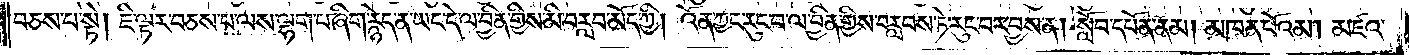བཅས་པ་སྟེ། ཇི་ལྟར་བཅས་པ་ལས་ལྷག་པ་ཞིག་རྙེད་ན་ཡང་དེ་ལ་བྱིན་གྱིས་མི་བརླབ་མོད་ཀྱི། འོན་ཀྱང་རུང་བ་ལ་བྱིན་གྱིས་བརླབས་ཏེ་རུང་བར་བྱས་ན། སློབ་དཔོན་ནམ། མཁན་པོའམ། མཛའ་
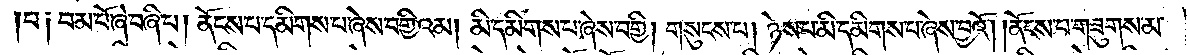བ༑ བམ་པོ་ཞེ་བཞི་པ། ནོངས་པ་དམིགས་པ་ཞེས་བགྱིའམ། མི་དམིགས་པ་ཞེས་བགྱི། གསུངས་པ། ཉེས་པ་མི་དམིགས་པ་ཞེས་བྱའོ། །ནོངས་པ་གཟུགས་མ་
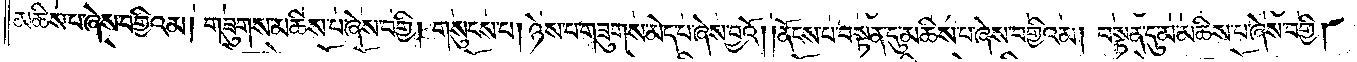མཆིས་པ་ཞེས་བགྱིའམ། གཟུགས་མཆིས་པ་ཞེས་བགྱི། གསུངས་པ། ཉེས་པ་གཟུགས་མེད་པ་ཞེས་བྱའོ། །ནོངས་པ་བསྟན་དུ་མཆིས་པ་ཞེས་བགྱིའམ། བསྟན་དུ་མ་མཆིས་པ་ཞེས་བགྱི།
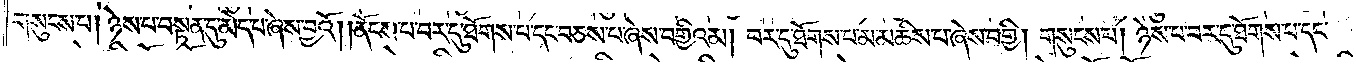གསུངས་པ། ཉེས་པ་བསྟན་དུ་མེད་པ་ཞེས་བྱའོ། །ནོངས་པ་བར་དུ་ཐོགས་པ་དང་བཅས་པ་ཞེས་བགྱིའམ། བར་དུ་ཐོགས་པ་མ་མཆིས་པ་ཞེས་བགྱི། གསུངས་པ། ཉེས་པ་བར་དུ་ཐོགས་པ་དང༌།
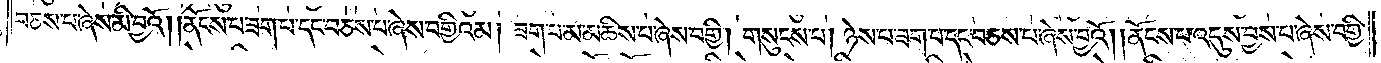བཅས་པ་ཞེས་མི་བྱའོ། །ནོངས་པ་ཟག་པ་དང་བཅས་པ་ཞེས་བགྱིའམ། ཟག་པ་མ་མཆིས་པ་ཞེས་བགྱི། གསུངས་པ། ཉེས་པ་ཟག་པ་དང་བཅས་པ་ཞེས་བྱའོ། །ནོངས་པ་འདུས་བྱས་པ་ཞེས་བགྱི་
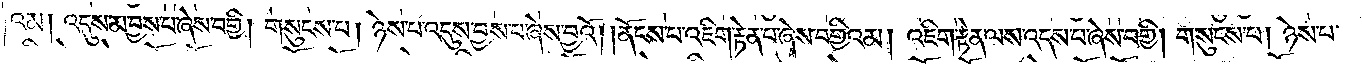འམ། འདུས་མ་བྱས་པ་ཞེས་བགྱི། གསུངས་པ། ཉེས་པ་འདུས་བྱས་པ་ཞེས་བྱའོ། །ནོངས་པ་འཇིག་རྟེན་པ་ཞེས་བགྱིའམ། འཇིག་རྟེན་ལས་འདས་པ་ཞེས་བགྱི། གསུངས་པ། ཉེས་པ་
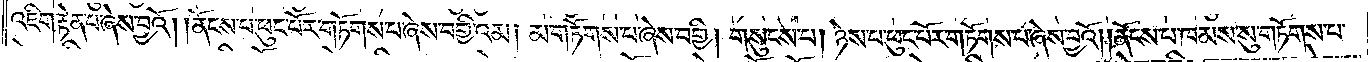འཇིག་རྟེན་པ་ཞེས་བྱའོ། །ནོངས་པ་ཕུང་པོར་གཏོགས་པ་ཞེས་བགྱིའམ། མ་གཏོགས་པ་ཞེས་བགྱི། གསུངས་པ། ཉེས་པ་ཕུང་པོར་གཏོགས་པ་ཞེས་བྱའོ། །ནོངས་པ་ཁམས་སུ་གཏོགས་པ་
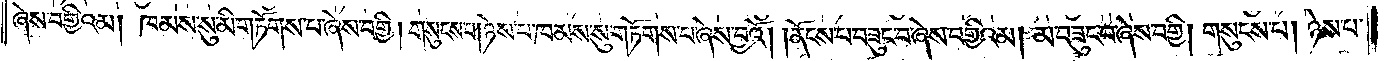ཞེས་བགྱིའམ། ཁམས་སུ་མི་གཏོགས་པ་ཞེས་བགྱི། གསུངས་པ། ཉེས་པ་ཁམས་སུ་གཏོགས་པ་ཞེས་བྱའོ། །ནོངས་པ་བཟུང་བ་ཞེས་བགྱིའམ། མ་བཟུང་བ་ཞེས་བགྱི། གསུངས་པ། ཉེས་པ་
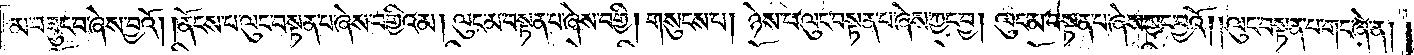མ་བཟུང་བ་ཞེས་བྱའོ། །ནོངས་པ་ལུང་བསྟན་པ་ཞེས་བགྱིའམ། ལུང་མ་བསྟན་པ་ཞེས་བགྱི། གསུངས་པ། ཉེས་པ་ལུང་བསྟན་པ་ཞེས་ཀྱང་བྱ། ལུང་མ་བསྟན་པ་ཞེས་ཀྱང་བྱའོ། །ལུང་བསྟན་པ་གང་ཞེ་ན།
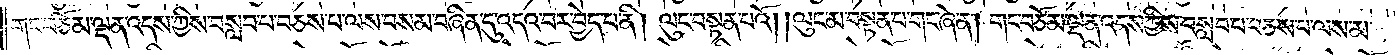གང་བཅོམ་ལྡན་འདས་ཀྱིས་བསླབ་པ་བཅས་པ་ལས་བསམ་བཞིན་དུ་འདའ་བར་བྱེད་པ་ནི། ལུང་བསྟན་པའོ། །ལུང་བསྟན་པ་གང་ཞེ་ན། གང་བཅོམ་ལྡན་འདས་ཀྱིས་བསླབ་པ་བཅས་པ་ལས་མ་
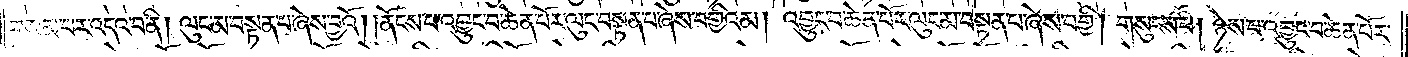བསམ་པར་འདའ་བ་ནི། ལུང་མ་བསྟན་པ་ཞེས་བྱའོ། །ནོངས་པ་འབྱུང་བ་ཆེན་པོར་ལུང་བསྟན་པ་ཞེས་བགྱིའམ། འབྱུང་བ་ཆེན་པོར་ལུང་མ་བསྟན་པ་ཞེས་བགྱི། གསུངས་པ། ཉེས་པ་འབྱུང་བ་ཆེན་པོར་
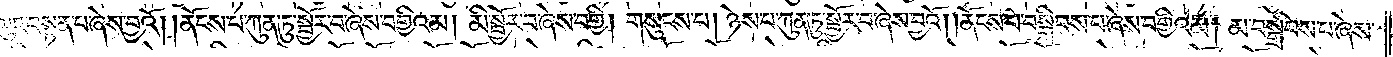ལུང་བསྟན་པ་ཞེས་བྱའོ། །ནོངས་པ་ཀུན་ཏུ་སྦྱོར་བ་ཞེས་བགྱིའམ། མི་སྦྱོར་བ་ཞེས་བགྱི། གསུངས་པ། ཉེས་པ་ཀུན་ཏུ་སྦྱོར་བ་ཞེས་བྱའོ། །ནོངས་པ་བསྒྲིབས་པ་ཞེས་བགྱིའམ། མ་བསྒྲིབས་པ་ཞེས་
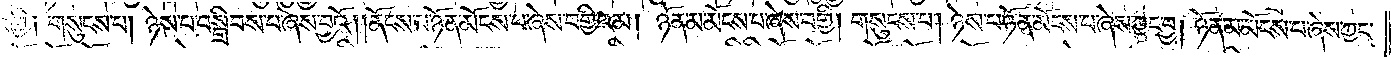བགྱི༑ གསུངས་པ། ཉེས་པ་བསྒྲིབས་པ་ཞེས་བྱའོ། །ནོངས་པ་ཉོན་མོངས་པ་ཞེས་བགྱིའམ། ཉོན་མ་མོངས་པ་ཞེས་བགྱི། གསུངས་པ། ཉེས་པ་ཉོན་མོངས་པ་ཞེས་ཀྱང་བྱ། ཉོན་མ་མོངས་པ་ཞེས་ཀྱང་
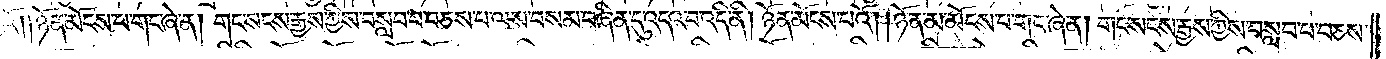བྱའོ། །ཉོན་མོངས་པ་གང་ཞེ་ན། གང་སངས་རྒྱས་ཀྱིས་བསླབ་པ་བཅས་པ་ལས་བསམ་བཞིན་དུ་འདའ་བ་འདི་ནི། ཉོན་མོངས་པའོ། །ཉོན་མ་མོངས་པ་གང་ཞེ་ན། གང་སངས་རྒྱས་ཀྱིས་བསླབ་པ་བཅས་
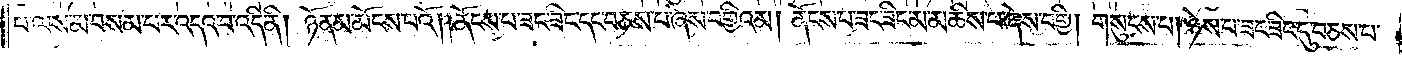པ་ལས་མ་བསམ་པར་འདའ་བ་འདི་ནི། ཉོན་མ་མོངས་པའོ། །ནོངས་པ་ཟང་ཟིང་དང་བཅས་པ་ཞེས་བགྱིའམ། ནོངས་པ་ཟང་ཟིང་མ་མཆིས་པ་ཞེས་བགྱི། གསུངས་པ། ཉེས་པ་ཟང་ཟིང་དུ་བཅས་པ་
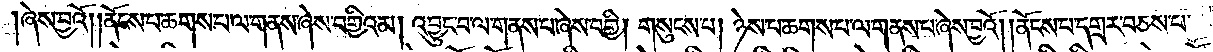ཞེས་བྱའོ། །ནོངས་པ་ཆགས་པ་ལ་གནས་ཞེས་བགྱིའམ། འབྱུང་བ་ལ་གནས་པ་ཞེས་བགྱི། གསུངས་པ། ཉེས་པ་ཆགས་པ་ལ་གནས་པ་ཞེས་བྱའོ། །ནོངས་པ་དགྲར་བཅས་པ་
